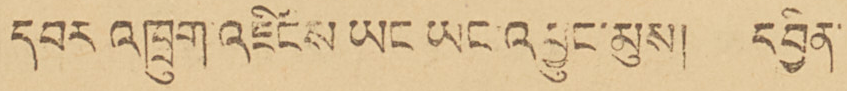དབར འཁྲུག་འཛིངས ཡང ཡང་འབྱུང་མུས། དབྱིན་
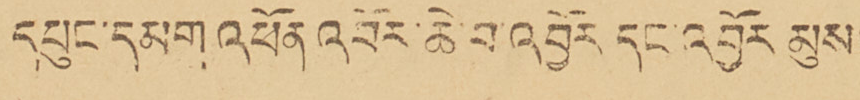དཔུང་དམག འཕོན འབོར་ཆེ་བ་འབྱོར དང་འབྱོར མུས
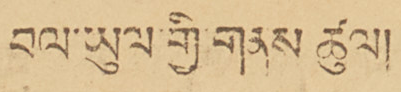བལ་ཡུལ་གྱི་གནས ཚུལ།
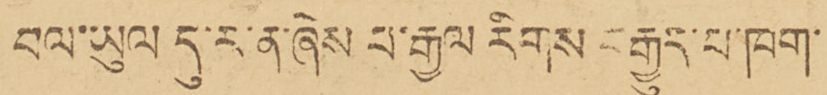བལ་ཡུལ དུ་ར་ན་ཞེས པ་རྒྱལ རིགས བརྒྱུད་པ་ཁག་
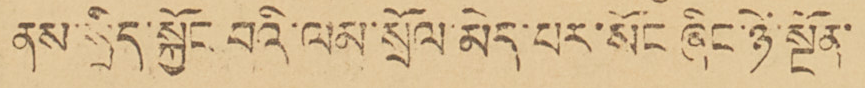ནས་སྲིད་སྐྱོང བའི་ལམ་སྲོལ་མེད་པར་སོང ཞིང་ཉེ་སྔོན་
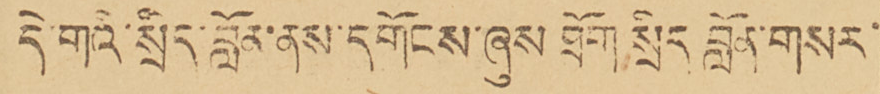དེ་གའི་སྲིད་བློན་ནས་དགོངས་ཞུས ཐོག་སྲིད བློན་གསར་
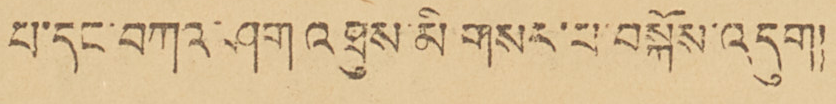པ་དང་བཀའ་ཤག འཐུས་མི གསར་པ་བསྐོས་འདུག།།
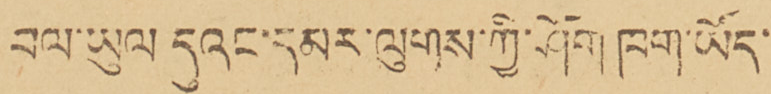བལ་ཡུལ དུའང་དམར་ལུགས་ཀྱི་ཤོག ཁག་ཡོད་
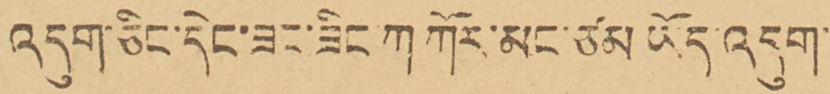འདུག་ཅིང་དེང་ཟང་ཟིང་ཀ ཀོར་མང་ཙམ ཡོད་འདུག་
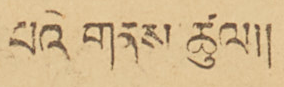པའི གནས་ཚུལ།།
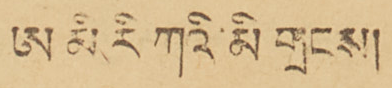ཨ མི རི ཀའི་མི གྲངས།
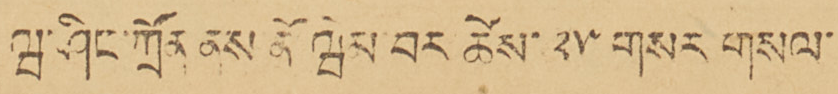ཝ་ཤིང་ཀྲོན ནས ནོ ཝེམ་བར ཚེས་ ༢༥ གསར གསལ་
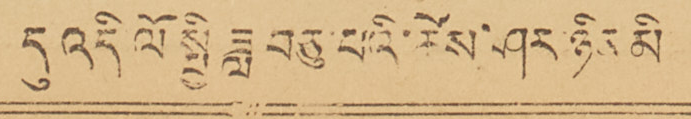དུ འདི ལོ སྤྱི ཟླ བཅུ་པའི་ཚེས་ཤར་ཉིས མི
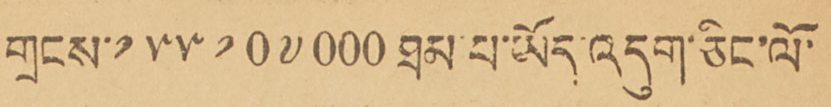གྲངས་༡༥༥༡0༧000 ཐམ་པ་ཡོད་འདུག་ཅིང་ལོ་
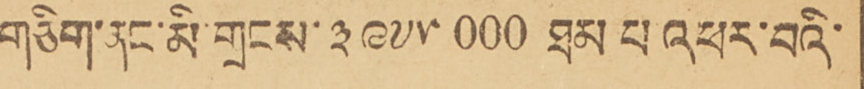གཅིག་ནང་མི་གྲངས་༣༩༧༥000ཐམ པ འཕར་བའི་
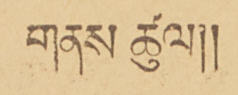གནས་ཚུལ།།
